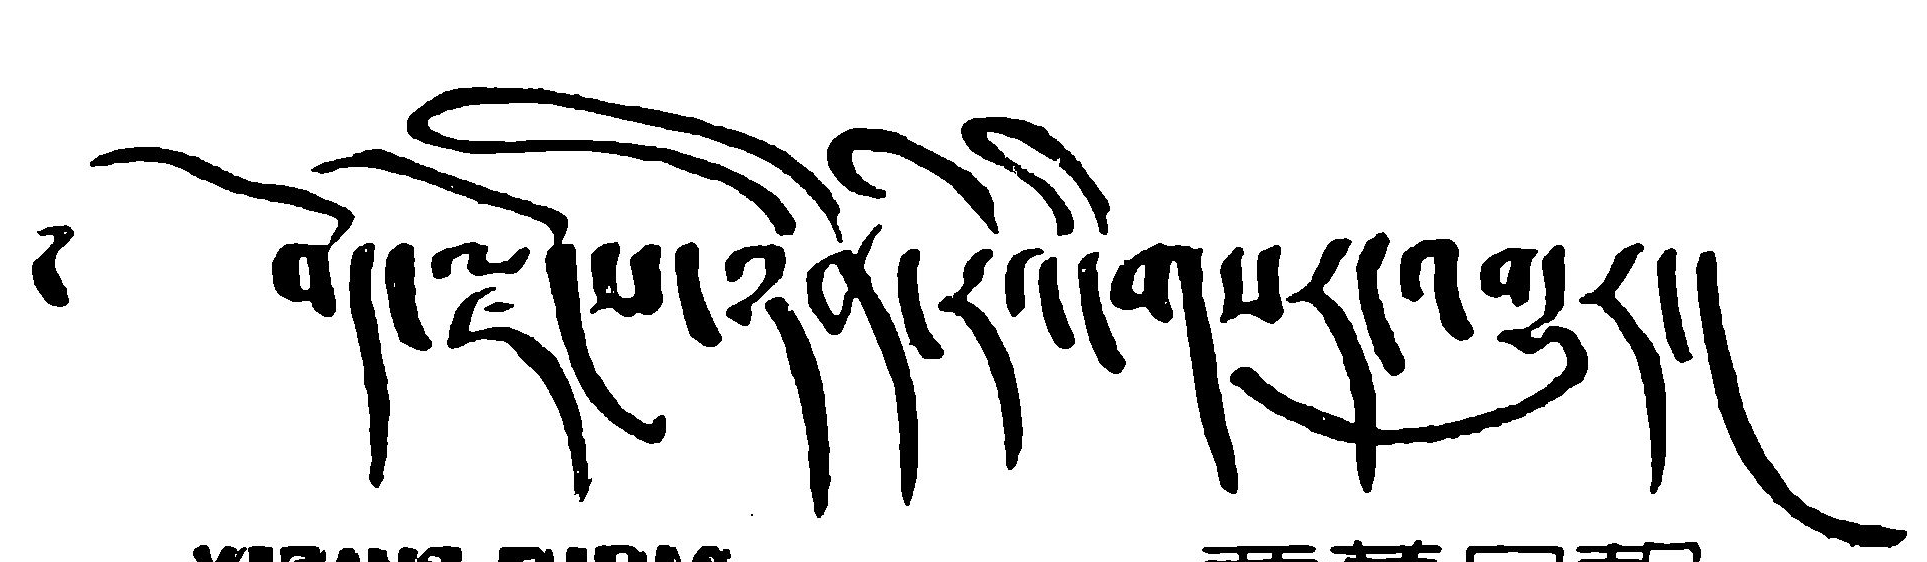༄ བོད་ལྗོངས་ཉིན་རེའི་གསར་འགྱུར།
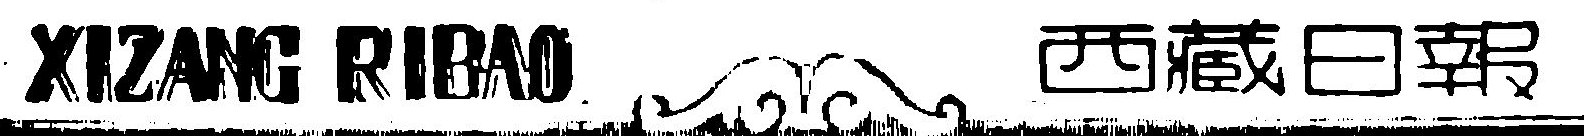XIZANG RIBAO 西 藏 日 報
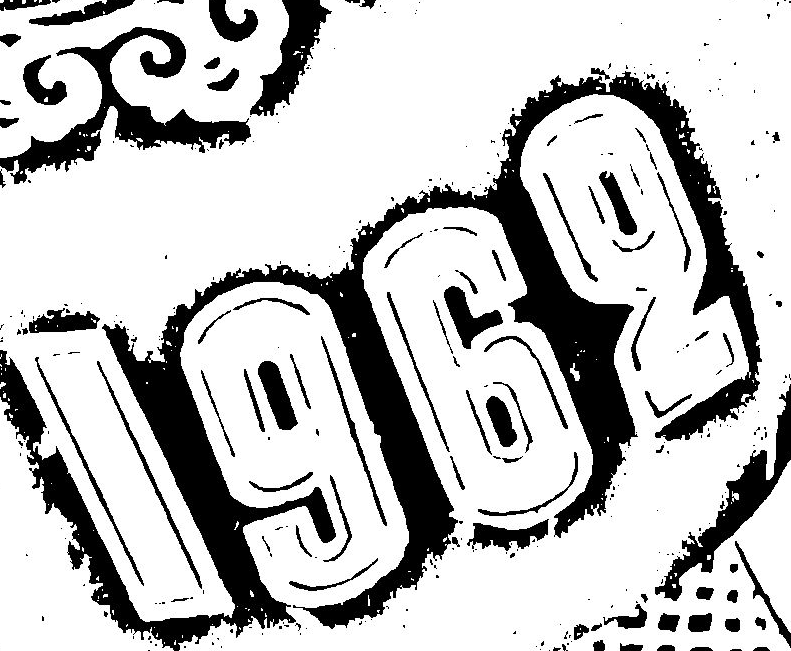1962
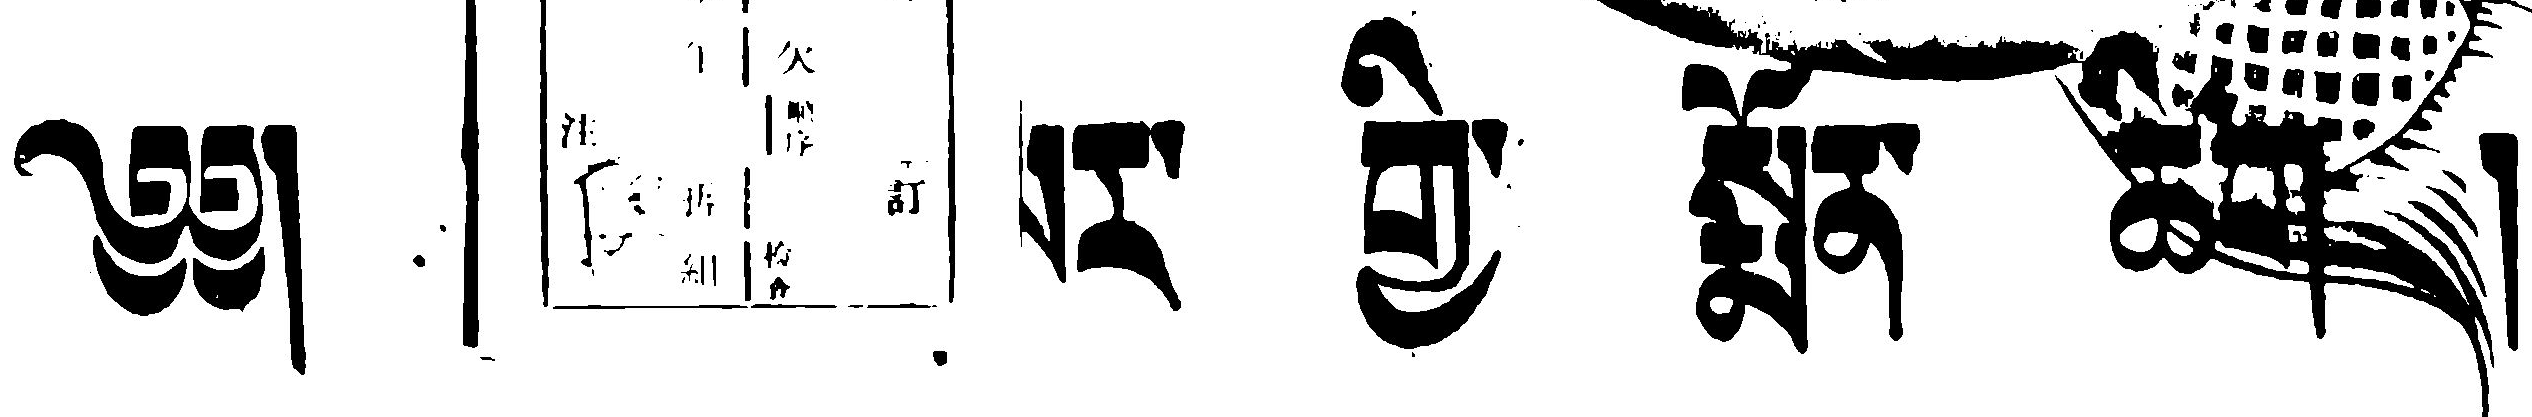༄༅། །ལོ་ གསར་ གྱི་ སྨོན་ ཚིག །
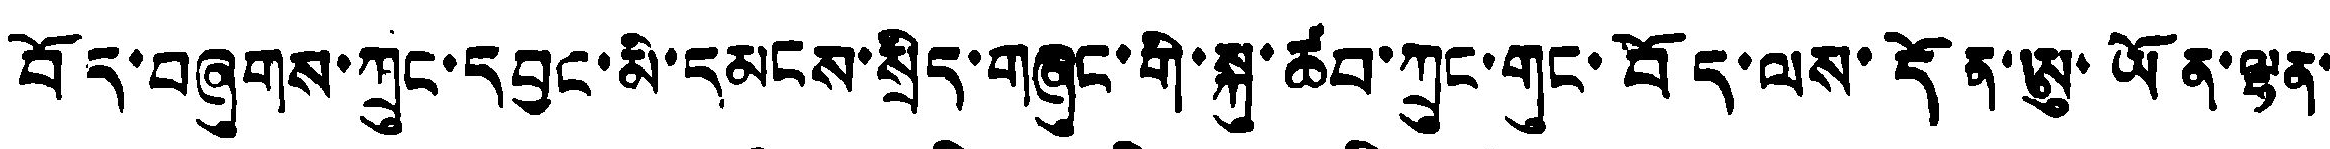བོད་བཞུགས་ཀྲུང་དབྱང་མི་དམངས་སྲིད་གཞུང་གི་སྐུ་ཚབ་ཀྲུང་གུང་བོད་ལས་དོན་ཨུ་ཡོན་ལྷན་
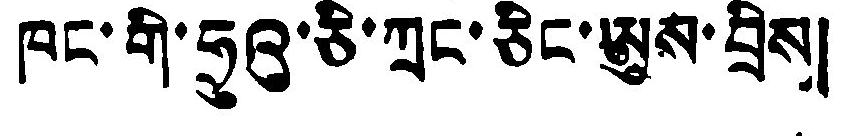ཁང་གི་ཧུའུ་ཅི་ཀྲང་ཅིང་ཨུས་བྲིས།་
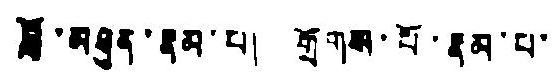བློ་མཐུན་རྣམ་པ། གྲོགས་པོ་རྣམ་པ་
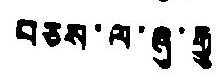བཅས་ལ་ཞུ་རྒྱུ
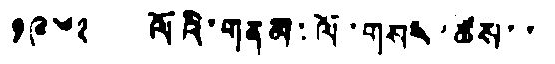༡༩༦༢ ལོའི་གནམ་ལོ་གསར་ཚེས་་
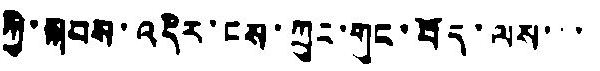ཀྱི་སྐབས་འདིར་ངས་ཀྲུང་གུང་བོད་ལས་་་
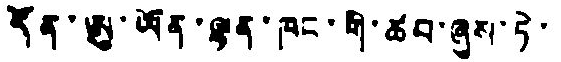དོན་ཨུ་ཡོན་ལྷན་ཁང་གི་ཚབ་ཞུས་ཏེ་
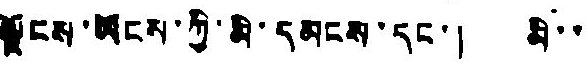ལྗོངས་ཡོངས་ཀྱི་མི་དམངས་དང་། མི་་
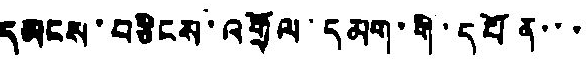དམངས་བཅིངས་འགྲོལ་དམག་གི་དཔོན་་་
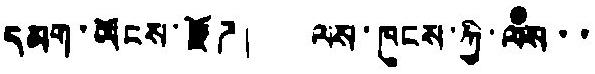དམག་ཡོངས་རྫོཌ། ལས་ཁུངས་ཀྱི་ལས་་
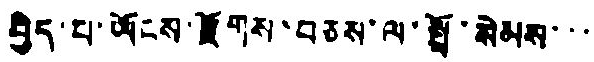བྱེད་པ་ཡོངས་རྫོགས་བཅས་ལ་སྤྲོ་སེམས་་་
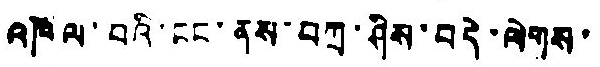འཁོལ་བའི་ངང་ནས་བཀྲ་ཤིས་བདེ་ལེགས་
